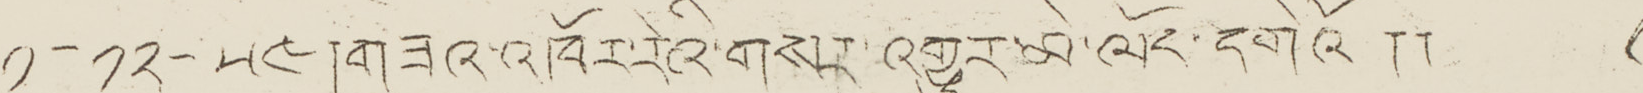༡-༡༢-༥༤།གཟའ་འཁོར་རེའི་གསར་འགྱུར་མེ་ལོང་དགེའོ།། ༩
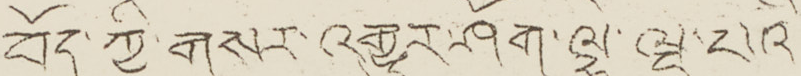བོད་ཀྱི་གསར་འགྱུར་ཤོག་ལྷེ་ལྔ་པའི་
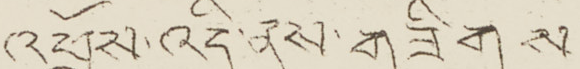འཕྲོས་འདི་ནས་གཟིགས:—
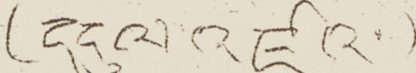( དངུལ་འཛའ་ )
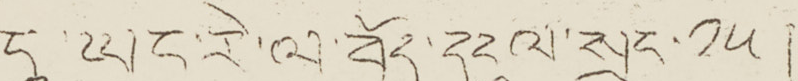དྰ་ཡད་རེ་ལ་བོད་དངུལ་སྲང་༡༥།
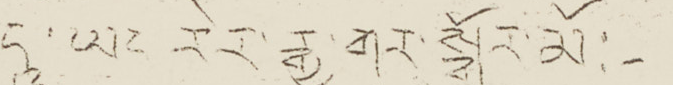དྰ་ཡང རེར་རྒྱ་གར་སྒོར་མོ:— ༣།
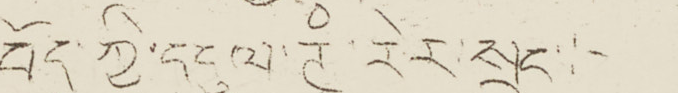བོད་ཀྱི་དངུལ་ཊཾ་རེར་སྲང་:— ༤།
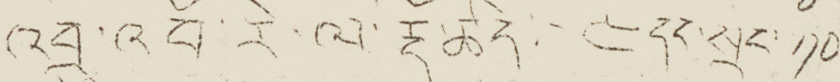འབྲུ་འབོ་རེ་ལ་རྡོ་ཚད:—༤དང་སྲང་༡༠
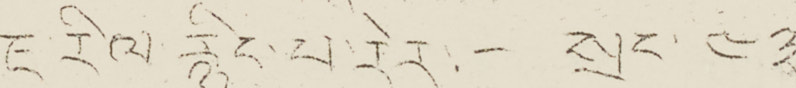ཇ་རིལ་རྙིང་པ་རེད་:—སྲང་ ༤༣
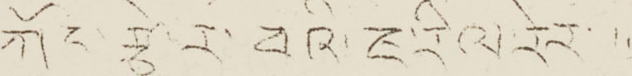ཀོང་རྩེ་ར་བའི་ཇ་རིལ་རེར་ ༣༦།
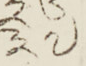༣༧
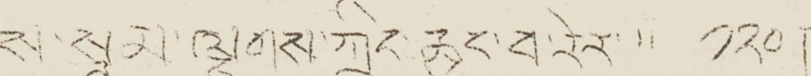ས་སྣུམ་ལྕགས་ཀྲིང་ཆུང་བ་རེར་ ༡༢༠།
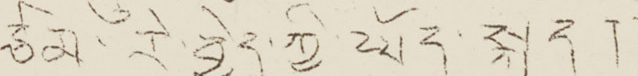ཙམ་རེ་བྱེད་ཀྱི་ཡོད་སྐད།།
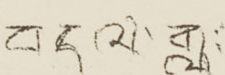བདལ་གླ:—
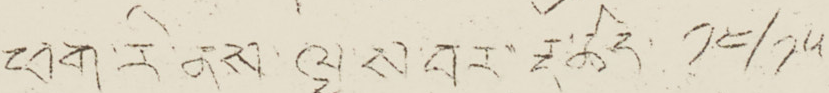ཕག་རི་ནས་ལྷ་ས་བར་རྡོ་ཚད་ ༡༤/༡༥
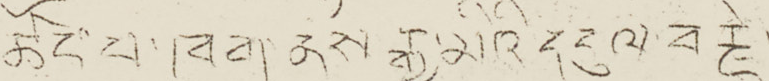ཚོང་པ་ཁག་ནས་རྒྱ་མིའི་དངུལ་བརྗེ་
